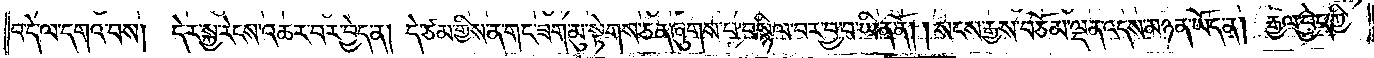བ་དེ་ལ་དགའ་བས། དེར་སྐྱ་རེངས་འཆར་བར་བྱེད་ན། དེ་ཙམ་གྱིས་ན་གང་ཟག་མུ་སྟེགས་ཅན་ཞུགས་པ་བསྙིལ་བར་བྱ་བ་ཡིན་ནོ། །སངས་རྒྱས་བཅོམ་ལྡན་འདས་མཉན་ཡོད་ན། རྒྱལ་བྱེད་ཀྱི་
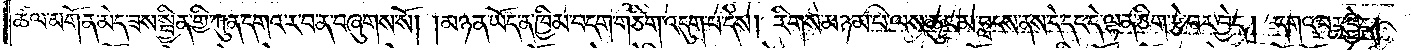ཚལ་མགོན་མེད་ཟས་སྦྱིན་གྱི་ཀུན་དགའ་ར་བ་ན་བཞུགས་སོ། །མཉན་ཡོད་ན་ཁྱིམ་བདག་གཅིག་འདུག་པ་དེས། རིགས་མཉམ་པ་ལས་ཆུང་མ་བླངས་ནས་དེ་དང་དེ་ལྷན་ཅིག་རྩེ་བར་བྱེད། དགའ་བར་བྱེད།
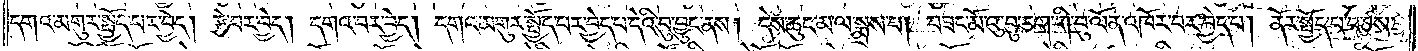དགའ་མགུར་སྤྱོད་པར་བྱེད། རྩེ་བར་བྱེད། དགའ་བར་བྱེད། དགའ་མགུར་སྤྱོད་པར་བྱེད་པ་དེའི་བུ་བྱུང་ནས། དེས་ཆུང་མ་ལ་སྨྲས་པ། བཟང་མོའུ་བུ་ཅག་གི་བུ་ལོན་འཁོར་བར་བྱེད་པ། ནོར་སྤྱོད་པ་བཅས་
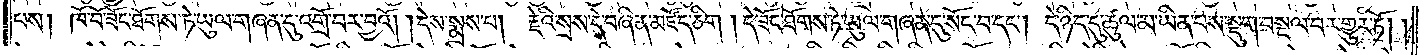པས། ཁོ་བོ་ཟོང་ཐོགས་ཏེ་ཡུལ་གཞན་དུ་འགྲོ་བར་བྱའོ། །དེས་སྨྲས་པ། རྗེའི་སྲས་དེ་བཞིན་མཛོད་ཅིག །དེ་ཟོང་ཐོགས་ཏེ་ཡུལ་གཞན་དུ་སོང་བ་དང༌། དེ་ཉིད་དུ་ཚུལ་མ་ཡིན་པས་སྡུག་བསྔལ་བར་གྱུར་ཏོ། །
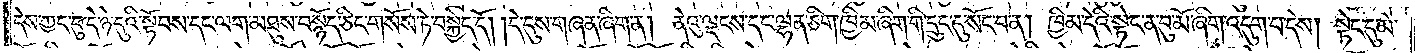དེས་ཀྱང་བུ་དེ་ཉེ་དུའི་སྟོབས་དང་ལག་མཐུས་བསྙོད་ཅིང་གསོས་ཏེ་བསྐྱེད་དོ། །དེ་དུས་གཞན་ཞིག་ན། ནེའུ་ལྡངས་དང་ལྷན་ཅིག་ཁྱིམ་ཞིག་གི་དྲུང་དུ་སོང་བ་ན། ཁྱིམ་དེའི་སྟེང་ན་བུ་མོ་ཞིག་འདུག་པ་དེས། སྟེང་དུ་མེ་
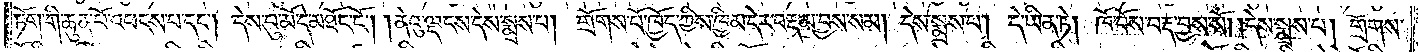ཏོག་གི་ཆུན་པོ་འཕངས་པ་དང༌། དེས་བུ་མོ་དེ་མཐོང་ངོ༌། །ནེའུ་ལྡངས་དེས་སྨྲས་པ། གྲོགས་པོ་ཁྱོད་ཀྱིས་ཁྱིམ་དེར་བརྡ་མ་བྱས་སམ། དེས་སྨྲས་པ། དེ་ཡིན་ཏེ། ཁོ་བོས་བརྡ་བྱས་སོ། །དེས་སྨྲས་པ། གྲོགས་
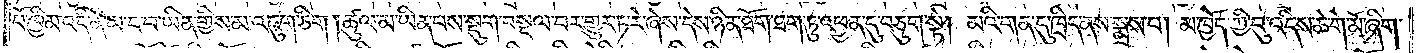པོ་ཁྱིམ་འདི་ནི་ཡང་བ་ཡིན་གྱིས་མ་འཇུག་ཅིག །ཚུལ་མ་ཡིན་པས་སྡུག་བསྔལ་བར་གྱུར་ཏ་རེ་ཞེས་དེས་ཉིན་ཐོག་ཐག་ཏུ་འཕྱན་དུ་བཅུག་སྟེ། མའི་གན་དུ་ཁྲིད་ནས་སྨྲས་པ། མ་ཁྱོད་ཀྱི་བུ་འདིས་ཆེ་གེ་མོ་ཞིག་
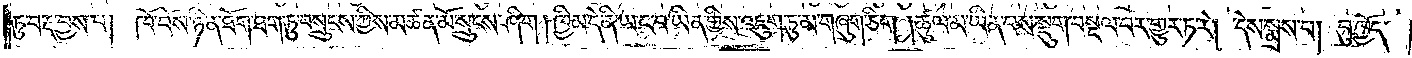ཏུ་བརྡ་བྱས་པ། ཁོ་བོས་ཉིན་ཐོག་ཐག་ཏུ་བསྲུངས་ཀྱིས་མཚན་མོ་སྲུངས་ཤིག །ཁྱིམ་དེ་ནི་ཡང་བ་ཡིན་གྱིས་འཇུག་ཏུ་མ་གཞུག་ཅིག །ཚུལ་མ་ཡིན་པས་སྡུག་བསྔལ་བར་གྱུར་ཏ་རེ། དེས་སྨྲས་པ། བུ་ཁྱོད་
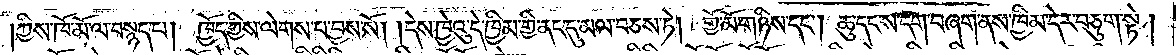ཀྱིས་ཁོ་མོ་ལ་བསྙད་པ། ཁྱོད་ཀྱིས་ལེགས་པ་བྱས་སོ། །དེས་ཁྱེའུ་དེ་ཁྱིམ་གྱི་ནང་དུ་མལ་བཅས་ཏེ། གྱོ་མོ་གཉིས་དང༌། ཆུ་དང་ས་དག་བཞག་ནས་ཁྱིམ་དེར་བཅུག་སྟེ།
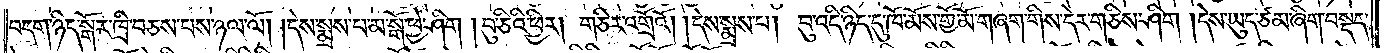བདག་ཉིད་སྒོར་ཁྲི་བཅས་པས་ཉལ་ལོ། །དེས་སྨྲས་པ་མ་སྒོ་ཕྱེ་ཤིག །བུ་ཅིའི་ཕྱིར། གཅིར་འགྲོའོ། །དེས་སྨྲས་པ། བུ་འདི་ཉིད་དུ་ཁོ་མོས་གྱོ་མོ་གཞག་གིས་དེར་གཅིས་ཤིག །དེས་ཡུད་ཙམ་ཞིག་བསྡད་
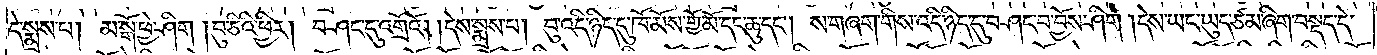དེ་སྨྲས་པ། མ་སྒོ་ཕྱེ་ཤིག །བུ་ཅིའི་ཕྱིར། བཤང་དུ་འགྲོའོ། །དེས་སྨྲས་པ། བུ་འདི་ཉིད་དུ་ཁོ་མོས་གྱོ་མོ་དང་ཆུ་དང༌། ས་གཞག་གིས་འདི་ཉིད་དུ་བཤང་བ་བྱོས་ཤིག །དེས་ཡང་ཡུད་ཙམ་ཞིག་བསྡད་དེ་
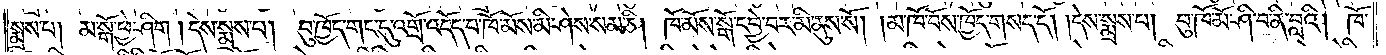སྨྲས་པ། མ་སྒོ་ཕྱེ་ཤིག །དེས་སྨྲས་པ། བུ་ཁྱོད་གང་དུ་འགྲོ་འདོད་པ་ཁོ་མོས་མི་ཤེས་སམ་ཅི། ཁོ་མོས་སྒོ་དབྱེ་བར་མི་ནུས་སོ། །མ་ཁོ་བོས་ཁྱོད་གསད་དོ། །དེས་སྨྲས་པ། བུ་ཁོ་མོ་ཤི་བ་ནི་བླའི། ཁོ་
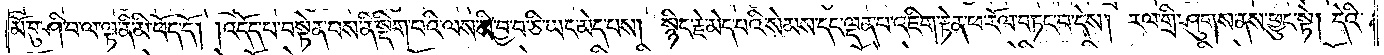མོ་བུ་ཤི་བ་ལ་ལྟ་ནི་མི་ཕོད་དོ། །འདོད་པ་བསྟེན་པས་ནི་སྡིག་པའི་ལས་མི་བྱ་བ་ཅི་ཡང་མེད་པས། སྙིང་རྗེ་མེད་པའི་སེམས་དང་ལྡན་པ་འཇིག་རྟེན་ཕ་རོལ་བཏང་བ་དེས། རལ་གྲི་ཤུགས་ནས་ཕྱུང་སྟེ། དེའི་
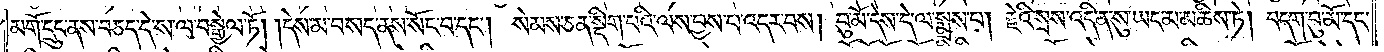མགོ་དྲུང་ནས་བཅད་དེ་ས་ལ་བསྒྱེལ་ཏོ། །དེས་མ་བསད་ནས་སོང་བ་དང༌། སེམས་ཅན་སྡིག་པའི་ལས་བྱས་པ་འདར་བས། བུ་མོ་དེས་དེ་ལ་སྨྲས་པ། རྗེའི་སྲས་འདི་ན་སུ་ཡང་མ་མཆིས་ཏེ། བདག་བུ་མོ་དང་
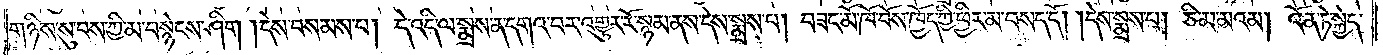གཉིས་སུ་བས་ཀྱི་མ་བསྙེངས་ཤིག །དེས་བསམས་པ། དེ་འདི་ལ་སྨྲས་ན་དགའ་བར་འགྱུར་རོ་སྙམ་ནས་དེས་སྨྲས་པ། བཟང་མོ་ཁོ་བོས་ཁྱོད་ཀྱི་ཕྱིར་མ་བསད་དོ། །དེས་སྨྲས་པ། ཅི་མ་མའམ། འོན་ཏེ་སྐྱེད་
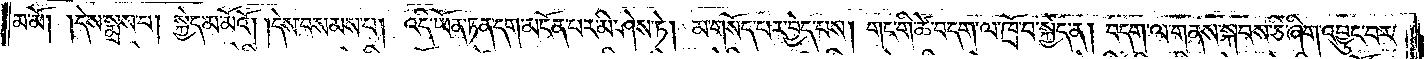མ་མོ། །དེས་སྨྲས་པ། སྐྱེད་མ་མོའོ། །དེས་བསམས་པ། འདི་ཡོན་ཏན་དག་མངོན་པར་མི་ཤེས་ཏེ། མ་གསོད་པར་བྱེད་པས། གང་གི་ཚེ་བདག་ལ་ཁྲོ་བ་སྐྱེད་ན། བདག་ལ་གནས་སྐབས་ཅི་ཞིག་འབྱུང་བར་
